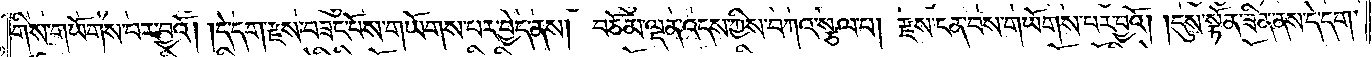གིས་གཡོགས་པར་བྱའོ། །དེ་དག་རྫས་བཟང་པོས་གཡོགས་པར་བྱེད་ནས། བཅོམ་ལྡན་འདས་ཀྱིས་བཀའ་སྩལ་པ། རྫས་ངན་པས་གཡོགས་པར་བྱའོ། །དུས་སྟོན་ཟིན་ནས་དེ་དག་
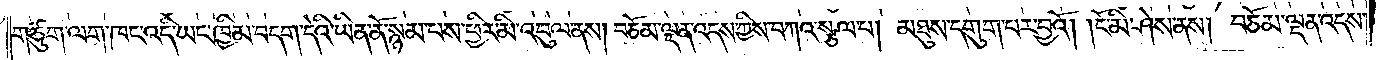གཙུག་ལག་ཁང་འདི་ཡང་ཁྱིམ་བདག་དེའི་ཡིན་ནོ་སྙམ་པས་ཕྱིར་མི་འབུལ་ནས། བཅོམ་ལྡན་འདས་ཀྱིས་བཀའ་སྩལ་པ། མཐུས་དགུག་པར་བྱའོ། །ངོ་མི་ཤེས་ནས། བཅོམ་ལྡན་འདས་
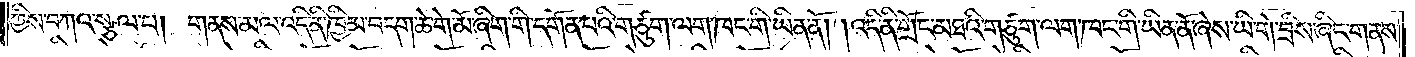ཀྱིས་བཀའ་སྩལ་པ། གནས་མལ་འདི་ནི་ཁྱིམ་བདག་ཆེ་གེ་མོ་ཞིག་གི་དགོན་པའི་གཙུག་ལག་ཁང་གི་ཡིན་ནོ། །འདི་ནི་གྲོང་མཐའི་གཙུག་ལག་ཁང་གི་ཡིན་ནོ་ཞེས་ཡི་གེ་བྲིས་ཞིང་གནས་
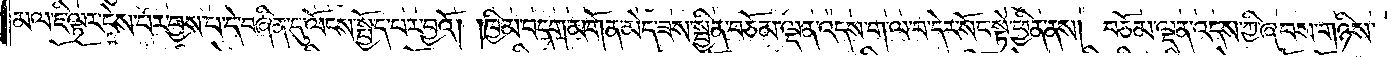མལ་ཇི་ལྟར་ངེས་པར་བྱས་པ་དེ་བཞིན་དུ་ལོངས་སྤྱོད་པར་བྱའོ། །ཁྱིམ་བདག་མགོན་མེད་ཟས་སྦྱིན་བཅོམ་ལྡན་འདས་ག་ལ་བ་དེར་སོང་སྟེ་ཕྱིན་ནས། བཅོམ་ལྡན་འདས་ཀྱིས་ཞབས་གཉིས་
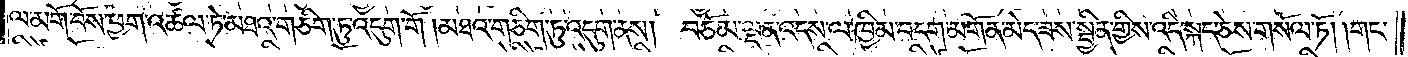ལ་མགོ་བོས་ཕྱག་འཚལ་ཏེ་མཐའ་གཅིག་ཏུ་འདུག་གོ །མཐའ་གཅིག་ཏུ་འདུག་ནས། བཅོམ་ལྡན་འདས་ལ་ཁྱིམ་བདག་མགོན་མེད་ཟས་སྦྱིན་གྱིས་འདི་སྐད་ཅེས་གསོལ་ཏོ། །གང་
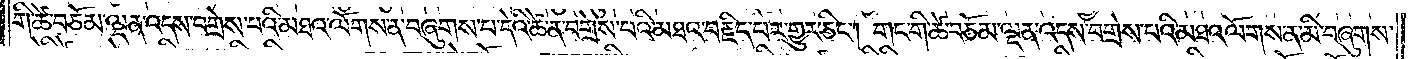གི་ཚེ་བཅོམ་ལྡན་འདས་བགྲེས་པའི་མཐའ་ལོགས་ན་བཞུགས་པ་དེའི་ཚེ་ན་བགྲེས་པའི་མཐའ་བརྗིད་པར་གྱུར་ཅིང༌། གང་གི་ཚེ་བཅོམ་ལྡན་འདས་བགྲེས་པའི་མཐའ་ལོགས་ན་མི་བཞུགས་
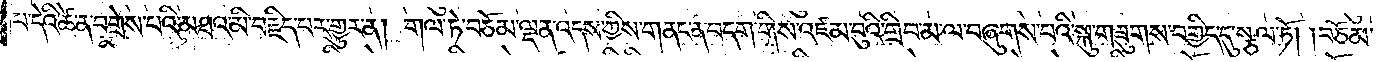པ་དེའི་ཚེ་ན་བགྲེས་པའི་མཐའ་མི་བརྗིད་པར་གྱུར་ན། གལ་ཏེ་བཅོམ་ལྡན་འདས་ཀྱིས་གནང་ན་བདག་གིས་འཛམ་བུའི་གྲིབ་མ་ལ་བཞུགས་པའི་སྐུ་གཟུགས་བགྱིད་དུ་སྩལ་ཏོ། །བཅོམ་
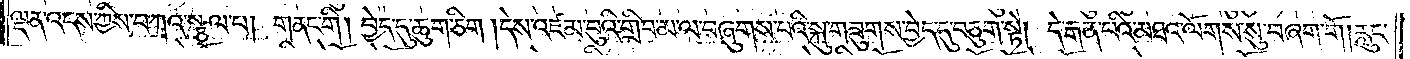ལྡན་འདས་ཀྱིས་བཀའ་སྩལ་པ། གནང་གི །བྱེད་དུ་ཆུག་ཅིག །དེས་འཛམ་བུའི་གྲིབ་མ་ལ་བཞུགས་པའི་སྐུ་གཟུགས་བྱེད་དུ་བཅུག་སྟེ། དེ་རྒན་པའི་མཐའ་ལོགས་སུ་བཞག་གོ། །རླུང་
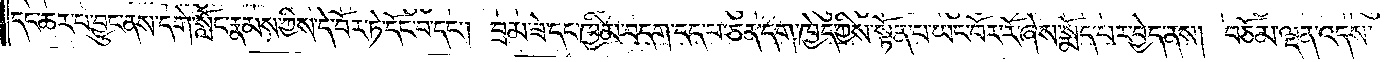དང་ཆར་པ་བྱུང་ནས་དགེ་སློང་རྣམས་ཀྱིས་དེ་བོར་ཏེ་དོང་བ་དང༌། བྲམ་ཟེ་དང་ཁྱིམ་བདག་དད་པ་ཅན་དག་ཁྱེད་ཀྱིས་སྟོན་པ་ཡང་བོར་རོ་ཞེས་སྨོད་པར་བྱེད་ནས། བཅོམ་ལྡན་འདས་
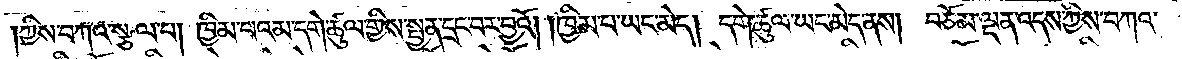ཀྱིས་བཀའ་སྩལ་པ། ཁྱིམ་བའམ་དགེ་ཚུལ་གྱིས་སྤྱན་དྲང་བར་བྱའོ། །ཁྱིམ་པ་ཡང་མེད། དགེ་ཚུལ་ཡང་མེད་ནས། བཅོམ་ལྡན་འདས་ཀྱིས་བཀའ་
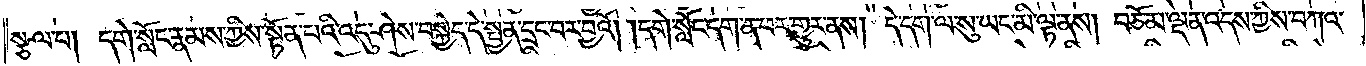སྩལ་བ། དགེ་སློང་རྣམས་ཀྱིས་སྟོན་པའི་འདུ་ཤེས་བསྐྱེད་དེ་སྤྱན་དྲང་བར་བྱའོ། །དགེ་སློང་དག་ན་བར་གྱུར་ནས། དེ་དག་ལ་སུ་ཡང་མི་ལྟ་ནས། བཅོམ་ལྡན་འདས་ཀྱིས་བཀའ་
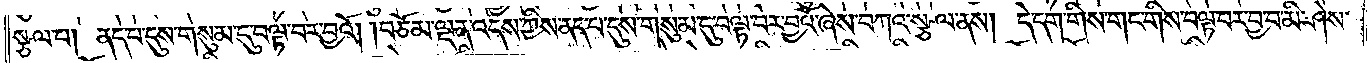སྩལ་བ། ནད་པ་དུས་གསུམ་དུ་བལྟ་བར་བྱའོ། །བཅོམ་ལྡན་འདས་ཀྱིས་ནད་པ་དུས་གསུམ་དུ་བལྟ་བར་བྱའོ་ཞེས་བཀའ་སྩལ་ནས། དེ་དག་གིས་ནང་གི་བལྟ་བར་བྱ་བ་མི་ཤེས་
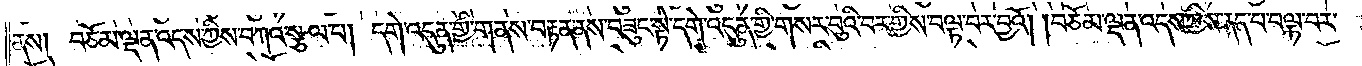ནས། བཅོམ་ལྡན་འདས་ཀྱིས་བཀའ་སྩལ་པ། དགེ་འདུན་གྱི་གནས་བརྟན་ནས་བཟུང་སྟེ་དགེ་འདུན་གྱི་གསར་བུའི་བར་གྱིས་བལྟ་བར་བྱའོ། །བཅོམ་ལྡན་འདས་ཀྱིས་ནད་པ་བལྟ་བར་
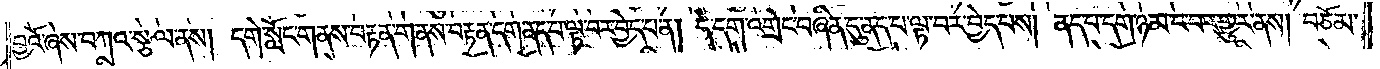བྱའོ་ཞེས་བཀའ་སྩལ་ནས། དགེ་སློང་གནས་བརྟན་གནས་བརྟན་དག་ནད་པ་ལྟ་བར་བྱེད་པ་ན། དེ་དག་འགྲེང་བཞིན་དུ་ནད་པ་ལྟ་བར་བྱེད་པས། ནད་པ་དག་ཉམ་ང་བར་གྱུར་ནས། བཅོམ་
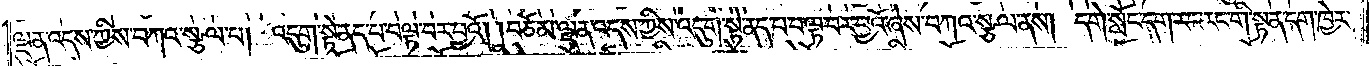ལྡན་འདས་ཀྱིས་བཀའ་སྩལ་པ། འདུག་སྟེ་ནད་པ་བལྟ་བར་བྱའོ། །བཅོམ་ལྡན་འདས་ཀྱིས་འདུག་སྟེ་ནད་པ་བལྟ་བར་བྱའོ་ཞེས་བཀའ་སྩལ་ནས། དགེ་སློང་དག་རང་རང་གི་སྟན་དག་ཁྱེར་
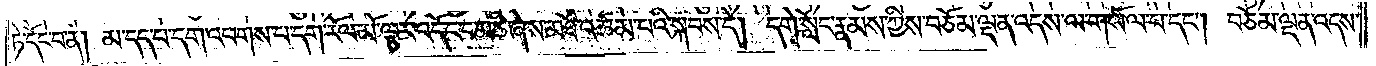ཏེ་དོང་བ་ན། མ་དད་པ་དག་འཕགས་པ་དག་རོལ་མོ་ལྟར་འདོང་ངམ་ཅི་ཞེས་མཐོ་འཚམ་པའི་སྐབས་དེ། དགེ་སློང་རྣམས་ཀྱིས་བཅོམ་ལྡན་འདས་ལ་གསོལ་བ་དང༌། བཅོམ་ལྡན་འདས་
